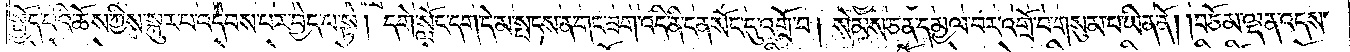སྤྱོད་པའི་ཆོས་ཀྱིས་སྐུར་བ་འདེབས་པར་བྱེད་པ་སྟེ། དགེ་སློང་དག་དེ་མ་སྤངས་ན་གང་ཟག་འདི་ནི་ངན་སོང་དུ་འགྲོ་བ། སེམས་ཅན་དམྱལ་བར་འགྲོ་བ་གསུམ་པ་ཡིན་ནོ། །བཅོམ་ལྡན་འདས་
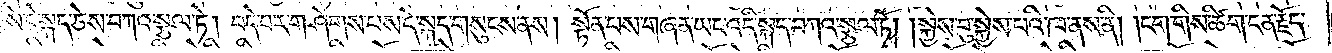ཀྱིས་དེ་སྐད་ཅེས་བཀའ་སྩལ་ཏེ། བདེ་བར་གཤེགས་པས་དེ་སྐད་གསུངས་ནས། སྟོན་པས་གཞན་ཡང་འདི་སྐད་བཀའ་སྩལ་ཏོ། །སྐྱེས་བུ་སྐྱེས་པའི་ཁ་ནས་ནི། །ངག་གིས་ཚིག་ངན་རྗོད་
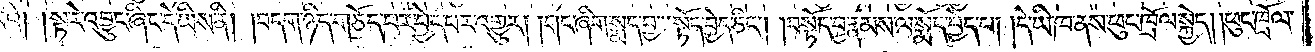པའི། །སྟ་རེ་འབྱུང་ཞིང་དེ་ཡིས་ནི། །བདག་ཉིད་གཅོད་པར་བྱེད་པར་འགྱུར། །གང་ཞིག་སྨད་བྱ་སྟོད་བྱེད་ཅིང༌། །བསྟོད་བྱ་རྣམས་ལ་སྨོད་བྱེད་པ། །དེ་ཡི་ཁ་ནས་ཕུང་ཁྲོལ་སྐྱེད། །ཕུང་ཁྲོལ་
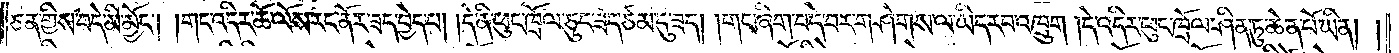ཅན་གྱིས་བདེ་མི་མྱོང༌། །གང་འདིར་ཆོ་ལོས་རང་ནོར་ཟད་བྱེད་པ། །དེ་ནི་ཕུང་ཁྲོལ་ཅུང་ཟད་ཙམ་དུ་ཟད། །གང་ཞིག་བདེ་བར་གཤེགས་ལ་ཡིད་རབ་འཁྲུག །དེ་འདིར་ཕུང་ཁྲོལ་ཤིན་ཏུ་ཆེན་པོ་ཡིན། །
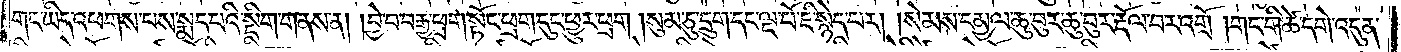གང་ཡིད་འཕགས་པས་སྣད་པའི་སྡིག་གནས་ན། །བྱེ་བ་བརྒྱ་ཕྲག་སྟོང་ཕྲག་དུང་ཕྱུར་ཕྲག །སུམ་ཅུ་དྲུག་དང་ལྔ་པོ་ཇི་སྙེད་པར། །སེམས་དམྱལ་ཆུ་བུར་ཆུ་བུར་རྡོལ་བར་འགྲོ། །གང་གི་ཚེ་དགེ་འདུན་
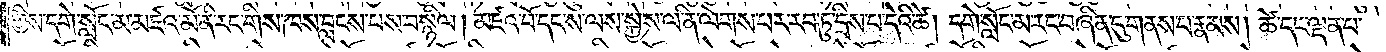གྱིས་དགེ་སློང་མ་མཛའ་མོ་ནི་རང་གིས་ཁས་བླངས་པས་བསྙིལ་། མཛའ་བོ་དང་ས་ལས་སྐྱེས་ལ་ནི་ལེགས་པར་རབ་ཏུ་དྲིས་པ་དེའི་ཚེ། དགེ་སློང་མ་རང་བཞིན་དུ་གནས་པ་རྣམས། ཚེ་དང་ལྡན་པ་
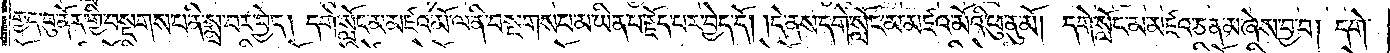གྱད་བུ་ནོར་གྱི་བསྔགས་པ་ནི་སྨྲ་བར་བྱེད། དགེ་སློང་མ་མཛའ་མོ་ལ་ནི་བསྔགས་པ་མ་ཡིན་པ་རྗོད་པར་བྱེད་དོ། །དེ་ནས་དགེ་སློང་མ་མཛའ་མོའི་ཕུ་ནུ་མོ། དགེ་སློང་མ་མཛའ་ཅན་མ་ཞེས་བྱ་བ། དགེ་
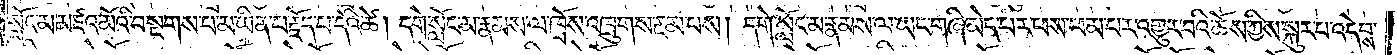སློང་མ་མཛའ་མོའི་བསྔགས་པ་མ་ཡིན་པ་རྗོད་པ་དེའི་ཚེ། དགེ་སློང་མ་རྣམས་ལ་ཁྲོས་འཁྲུགས་རྔམ་པས། དགེ་སློང་མ་རྣམས་ལ་ཡང་གཞི་མེད་པར་ཕས་ཕམ་པར་འགྱུར་བའི་ཆོས་ཀྱིས་སྐུར་བ་འདེབས་
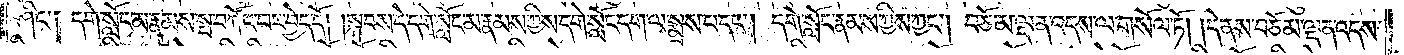ཤིང༌། དགེ་སློང་མ་རྣམས་སྤ་བཀོང་བར་བྱེད་དོ། །སྐབས་དེ་དགེ་སློང་མ་རྣམས་ཀྱིས་དགེ་སློང་དག་ལ་སྨྲས་པ་དང༌། དགེ་སློང་རྣམས་ཀྱིས་ཀྱང༌། བཅོམ་ལྡན་འདས་ལ་གསོལ་ཏོ། །དེ་ནས་བཅོམ་ལྡན་འདས་
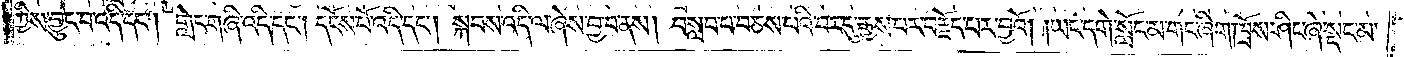ཀྱིས་བྱུང་བ་འདི་དང༌། གླེང་གཞི་འདི་དང༌། དངོས་པོ་འདི་དང༌། སྐབས་འདི་ལ་ཞེས་བྱ་བ་ནས། བསླབ་པ་བཅས་པའི་བར་དུ་རྒྱས་པར་བརྗོད་པར་བྱའོ། །ཡང་དགེ་སློང་མ་གང་ཞིག་ཁྲོས་ཤིང་ཞེ་སྡང་མ་
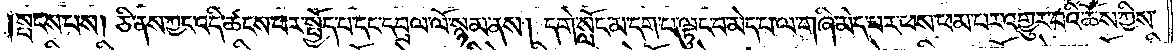སྤངས་པས། ཅི་ནས་ཀྱང་འདི་ཚངས་པར་སྤྱོད་པ་དང་དབྲལ་ལོ་སྙམ་ནས། དགེ་སློང་མ་དག་པ་ལྟུང་བ་མེད་པ་ལ་གཞི་མེད་པར་ཕས་ཕམ་པར་འགྱུར་བའི་ཆོས་ཀྱིས་
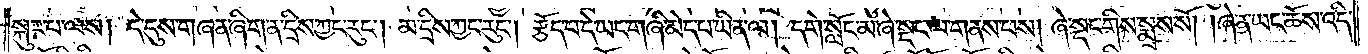སྐུར་པ་ལས། དེ་དུས་གཞན་ཞིག་ན་དྲིས་ཀྱང་རུང༌། མ་དྲིས་ཀྱང་རུང༌། རྩོད་པ་དེ་ཡང་གཞི་མེད་པ་ཡིན་ལ། དགེ་སློང་མ་ཞེ་སྡང་ལ་གནས་པས། ཞེ་སྡང་གིས་སྨྲས་སོ། །ཞེ་ན་ཡང་ཆོས་འདི་
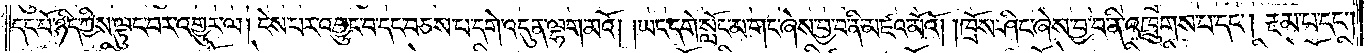དང་པོ་ཉིད་ཀྱིས་ལྟུང་བར་འགྱུར་ལ། ངེས་པར་འབྱུང་བ་དང་བཅས་པ་དགེ་འདུན་ལྷག་མའོ། །ཡང་དགེ་སློང་མ་གང་ཞེས་བྱ་བ་ནི་མཛའ་མོའོ། །ཁྲོས་ཤིང་ཞེས་བྱ་བ་ནི་འཁྲུགས་པ་དང༌། རྔམ་པ་དང༌།
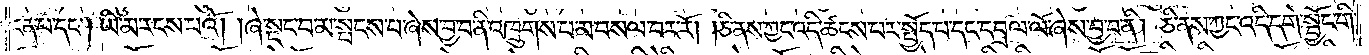ངན་པ་དང༌། ཡི་མ་རངས་པའོ། །ཞེ་སྡང་བ་མ་སྤངས་པ་ཞེས་བྱ་བ་ནི་འཁྲུགས་པ་མ་བསལ་བར་རོ། །ཅི་ནས་ཀྱང་འདི་ཚངས་པར་སྤྱོད་པ་དང་དབྲལ་ལོ་ཞེས་བྱ་བ་ནི། ཅི་ནས་ཀྱང་འདི་དགེ་སྦྱོང་གི་
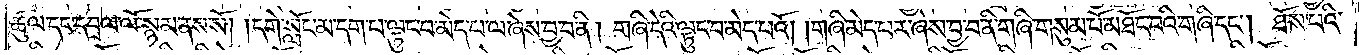ཚུལ་དང་དབྲལ་ལོ་སྙམ་ནས་སོ། །དགེ་སློང་མ་དག་པ་ལྟུང་བ་མེད་པ་ལ་ཞེས་བྱ་བ་ནི། གཞི་དེའི་ལྟུང་བ་མེད་པའོ། །གཞི་མེད་པར་ཞེས་བྱ་བ་ནི་གཞི་གསུམ་པོ་མཐོང་བའི་གཞི་དང༌། ཐོས་པའི་
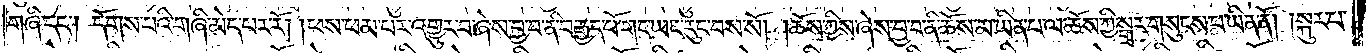གཞི་དང༌། དོགས་པའི་གཞི་མེད་པར་རོ། །ཕས་ཕམ་པར་འགྱུར་བ་ཞེས་བྱ་བ་ནི་བརྒྱད་པོ་གང་ཡང་རུང་བས་སོ། །ཆོས་ཀྱིས་ཞེས་བྱ་བ་ནི་ཆོས་མ་ཡིན་པ་ལ་ཆོས་ཀྱི་སྒྲར་གསུངས་པ་ཡིན་ནོ། །སྐུར་པ་
